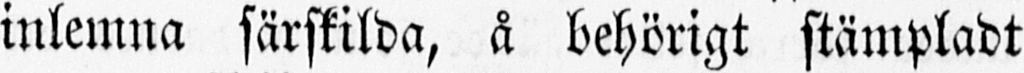inlemna särskilda, å behörigt stämpladt
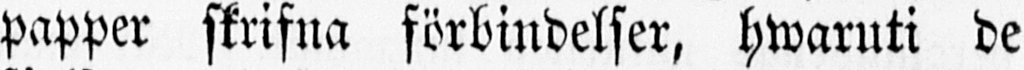papper skrifna förbindelser, hwaruti de
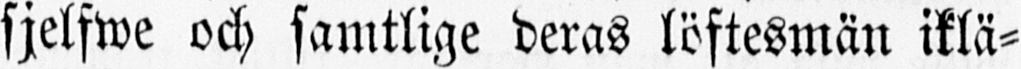sjelfwe och samtlige deras löftesmän iklä-
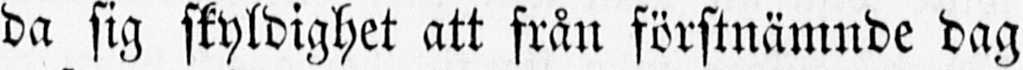da sig skyldighet att från förstnämnde dag
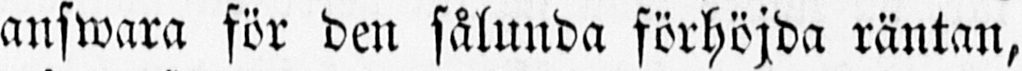answara för den sålunda förhöjda räntan,
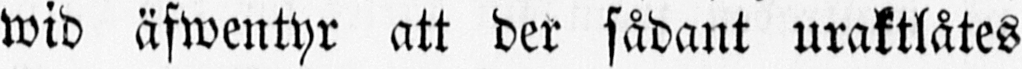wid äfwentyr att der sådant uraktlåtes
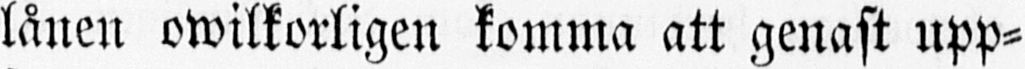lånen owilkorligen komma att genast upp-
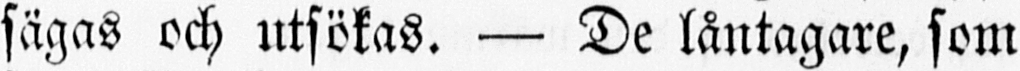sägas och utsökas. — De låntagare, som
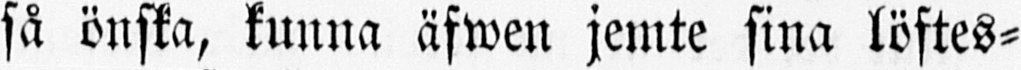så önska, kunna äfwen jemte sina löftes-
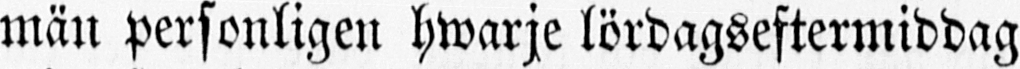män personligen hwarje lördagseftermiddag
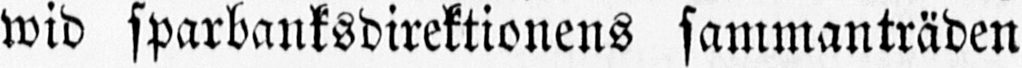wid sparbanksdirektionens sammanträden
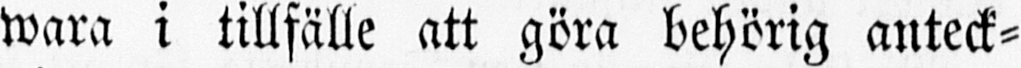wara i tillfälle att göra behörig anteck-
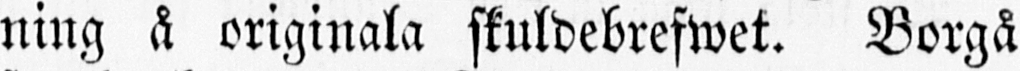ning å originala skuldebrefwet. Borgå
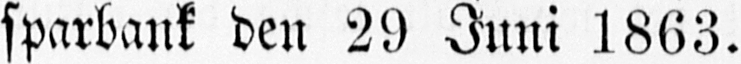sparbank den 29 Juni 1863.
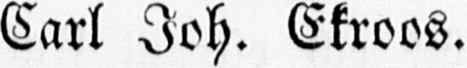Carl Joh. Ekroos.
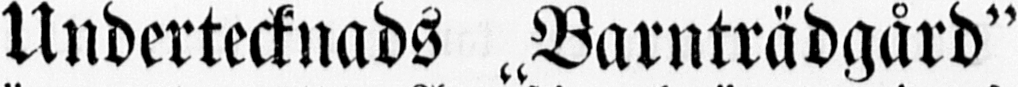Undertecknads Barnträdgård"
